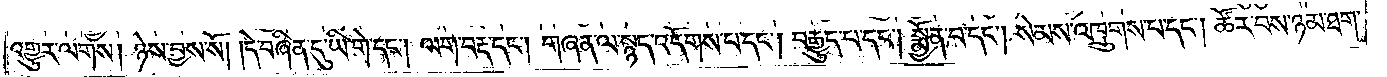འགྱུར་ལགས། ཉེས་བྱས་སོ། །དེ་བཞིན་དུ་ཡི་གེ་དང༌། ལག་བརྡ་དང༌། གཞན་ལ་སྙད་འདོགས་པ་དང༌། བརྒྱུད་པ་དང༌། སྨྱོན་པ་དང༌། སེམས་འཁྲུགས་པ་དང༌། ཚོར་བས་ཉམ་ཐག་
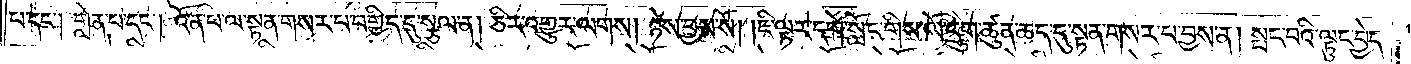པ་དང༌། གླེན་པ་དང༌། འོན་པ་ལ་སྟན་གསར་པ་བགྱིད་དུ་སྩལ་ན། ཅིར་འགྱུར་ལགས། ཉེས་བྱས་སོ། །ཇི་ལྟར་དགེ་སློང་གིས་ལོ་དྲུག་ཚུན་ཆད་དུ་སྟན་གསར་པ་བྱས་ན། སྤང་བའི་ལྟུང་བྱེད་
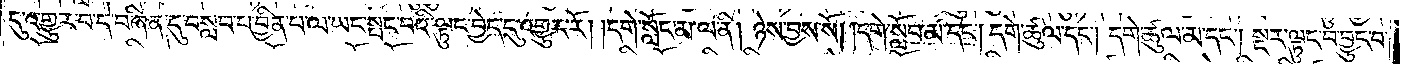དུ་འགྱུར་བ་དེ་བཞིན་དུ་བསླབ་པ་བྱིན་པ་ལ་ཡང་སྤང་བའི་ལྟུང་བྱེད་དུ་འགྱུར་རོ། །དགེ་སློང་མ་ལ་ནི། ཉེས་བྱས་སོ། །དགེ་སློང་མ་དང༌། དགེ་ཚུལ་དང༌། དགེ་ཚུལ་མ་དང༌། སྔར་ལྟུང་བ་བྱུང་བ་
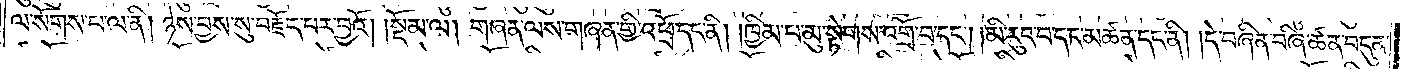ལ་སོགས་པ་ལ་ནི། ཉེས་བྱས་སུ་བརྗོད་པར་བྱའོ།    །སྡོམ་ལ། གཞན་ལས་གཞན་གྱི་འཕྲོ་དང་ནི། །ཁྱིམ་པ་མུ་སྟེགས་འགྲོ་བ་དང༌། །མི་རུང་བ་དང་མཚན་དང་ནི། །དེ་བཞིན་བཞི་ཚན་བདུན་
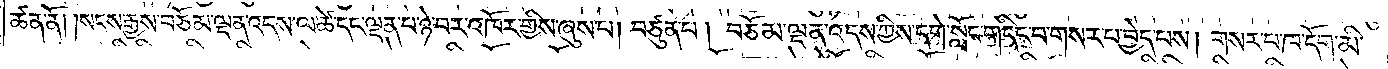ཚན་ནོ། །སངས་རྒྱས་བཅོམ་ལྡན་འདས་ལ་ཚེ་དང་ལྡན་པ་ཉེ་བར་འཁོར་གྱིས་ཞུས་པ། བཙུན་པ། བཅོམ་ལྡན་འདས་ཀྱིས་དགེ་སློང་གདིང་བ་གསར་པ་བྱེད་པས། གསར་པ་ཁ་དོག་མི་
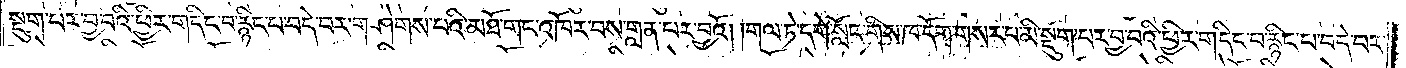སྡུག་པར་བྱ་བའི་ཕྱིར་གདིང་བ་རྙིང་བ་བདེ་བར་གཤེགས་པའི་མཐོ་གང་འཁོར་བས་གླན་པར་བྱའོ། །གལ་ཏེ་དགེ་སློང་གིས་ཁ་དོག་གསར་པ་མི་སྡུག་པར་བྱ་བའི་ཕྱིར་གདིང་བ་རྙིང་པ་བདེ་བར་
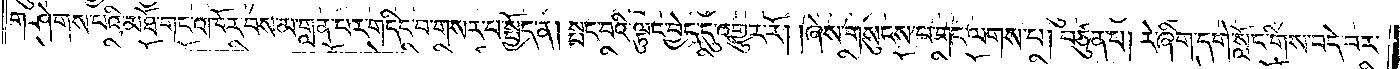གཤེགས་པའི་མཐོ་གང་འཁོར་བས་མ་གླན་པར་གདིང་བ་གསར་པ་སྤྱོད་ན། སྤང་བའི་ལྟུང་བྱེད་དུ་འགྱུར་རོ། །ཞེས་གསུངས་པ་གང་ལགས་པ། བཙུན་པ། རེ་ཞིག་དགེ་སློང་གིས་བདེ་བར་
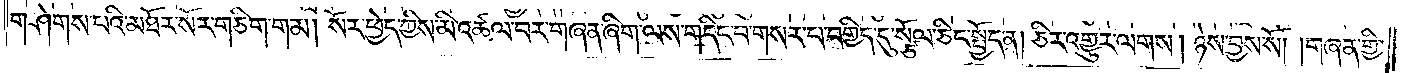གཤེགས་པའི་མཐོར་སོར་གཅིག་གམ། སོར་ཕྱེད་ཀྱིས་མི་འཚལ་བར་གཞན་ཞིག་ལས་གདིང་བ་གསར་པ་བགྱིད་དུ་སྩོལ་ཅིང་སྤྱོད་ན། ཅིར་འགྱུར་ལགས། ཉེས་བྱས་སོ། །གཞན་གྱི་
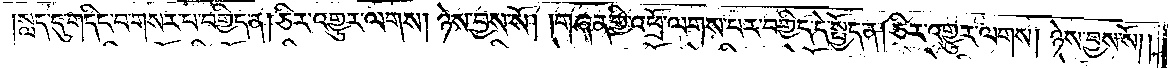།སླད་དུ་གདིང་བ་གསར་པ་བགྱིད་ན། ཅིར་འགྱུར་ལགས། ཉེས་བྱས་སོ། །གཞན་གྱི་འཕྲོ་ལགས་པར་བགྱིད་དེ་སྤྱོད་ན། ཅིར་འགྱུར་ལགས། ཉེས་བྱས་སོ། །
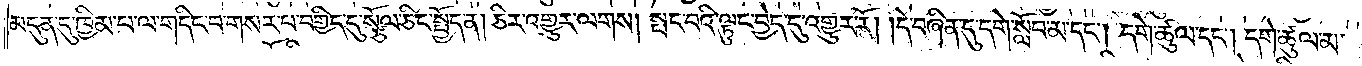མདུན་དུ་ཁྱིམ་པ་ལ་གདིང་བ་གསར་པ་བགྱིད་དུ་སྩོལ་ཅིང་སྤྱོད་ན། ཅིར་འགྱུར་ལགས། སྤང་བའི་ལྟུང་བྱེད་དུ་འགྱུར་རོ། །དེ་བཞིན་དུ་དགེ་སློབ་མ་དང༌། དགེ་ཚུལ་དང༌། དགེ་ཚུལ་མ་
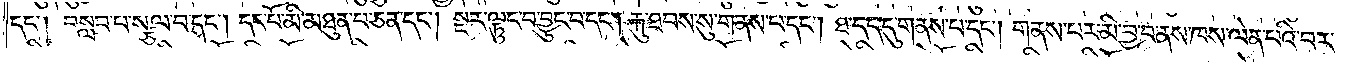དང༌། བསླབ་པ་སྩལ་བ་དང༌། དང་པོ་མི་མཐུན་པ་ཅན་དང༌། སྔར་ལྟུང་བ་བྱུང་བ་དང༌། རྐུ་ཐབས་སུ་གནས་པ་དང༌། ཐ་དད་དུ་གནས་པ་དང༌། གནས་པར་མི་བྱ་བ་ནས་ཁས་ལེན་པའི་བར་
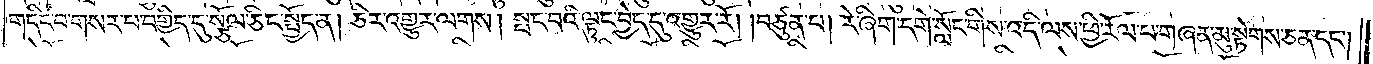གདིང་བ་གསར་པ་བགྱིད་དུ་སྩོལ་ཅིང་སྤྱོད་ན། ཅིར་འགྱུར་ལགས། སྤང་བའི་ལྟུང་བྱེད་དུ་འགྱུར་རོ། །བཙུན་པ། རེ་ཞིག་དགེ་སློང་གིས་འདི་ལས་ཕྱི་རོལ་པ་གཞན་མུ་སྟེགས་ཅན་དང༌།
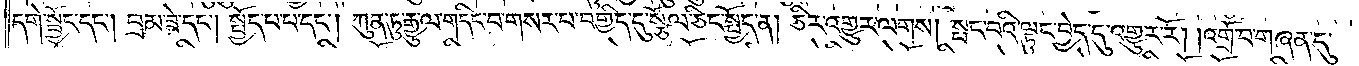དགེ་སྦྱོང་དང༌། བྲམ་ཟེ་དང༌། སྤྱོད་པ་པ་དང༌། ཀུན་ཏུ་རྒྱུ་ལ་གདིང་བ་གསར་པ་བགྱིད་དུ་སྩོལ་ཅིང་སྤྱོད་ན། ཅིར་འགྱུར་ལགས། སྤང་བའི་ལྟུང་བྱེད་དུ་འགྱུར་རོ། །འགྲོ་བ་གཞན་དུ་
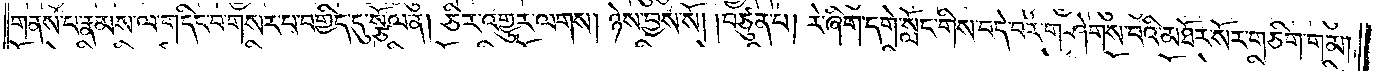གནས་པ་རྣམས་ལ་གདིང་བ་གསར་པ་བགྱིད་དུ་སྩོལ་ན། ཅིར་འགྱུར་ལགས། ཉེས་བྱས་སོ། །བཙུན་པ། རེ་ཞིག་དགེ་སློང་གིས་བདེ་བར་གཤེགས་པའི་མཐོར་སོར་གཅིག་གམ།
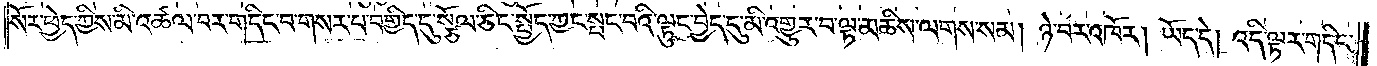སོར་ཕྱེད་ཀྱིས་མི་འཚལ་བར་གདིང་བ་གསར་པ་བགྱིད་དུ་སྩོལ་ཅིང་སྤྱོད་ཀྱང་སྤང་བའི་ལྟུང་བྱེད་དུ་མི་འགྱུར་བ་ལྟ་མཆིས་ལགས་སམ། ཉེ་བར་འཁོར། ཡོད་དེ། འདི་ལྟར་གདིང་
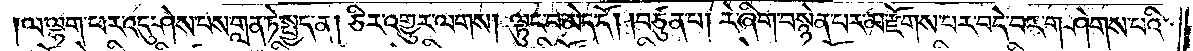།ལ་ལྷག་པར་འདུ་ཤེས་པས་གླན་ཏེ་སྤྱད་ན། ཅིར་འགྱུར་ལགས། ལྟུང་བ་མེད་དོ། །བཙུན་པ། རེ་ཞིག་བསྙེན་པར་མ་རྫོགས་པར་བདེ་བར་གཤེགས་པའི་
